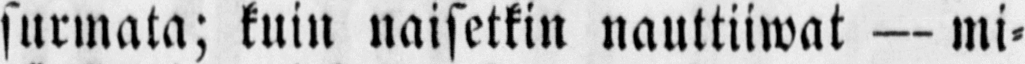surmata; kuin naisetkin nauttiiwat — mi-
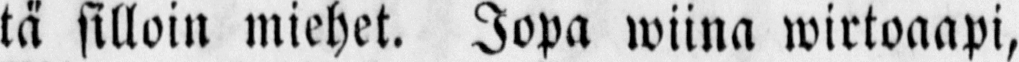tä silloin miehet. Jopa wiina wirtoaapi,
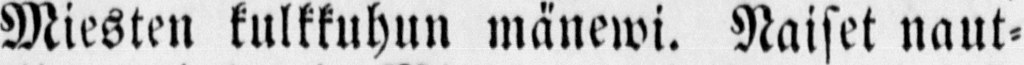Miesten kulkkuhun mänewi. Naiset naut-
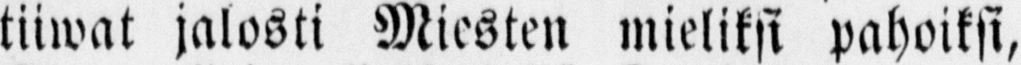tiiwat jalosti Miesten mieliksi pahoiksi,
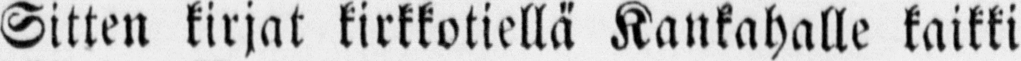Sitten kirjat kirkkotiellä Kaukahalle kaikki
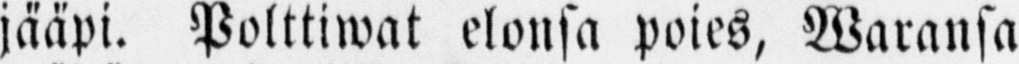jääpi. Polttiwat elonsa poies, Waransa
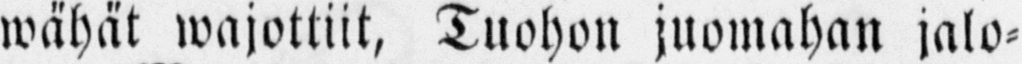wähät wajottiit, Tuohon juomahan jalo-
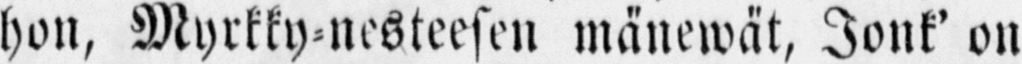han, Myrkky-nesteesen mänewät, Jonk' on
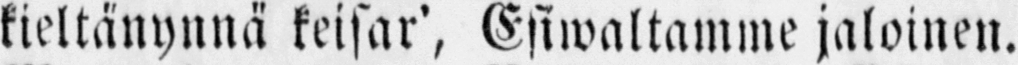kieltänynnä keisar', Esiwaltamme jaloinen.
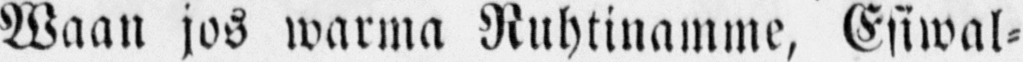Waan jos warma Ruhtinamme, Esiwal-
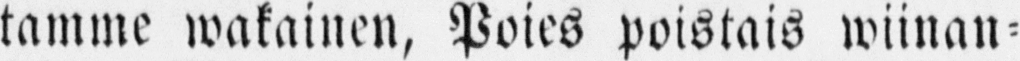tamme wakainen, Poies poistais wiinan-
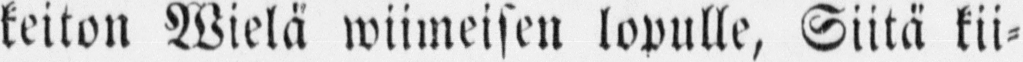keiton Wielä wiimeisen lopulle, Siitä kii-
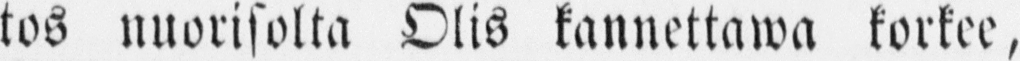tos nuorisolta Olis kannettawa korkee,
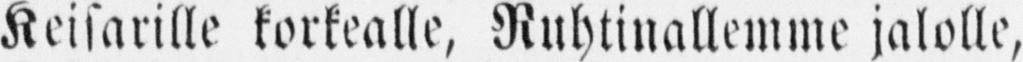Keisarille korkealle, Ruhtinallemme jalolle,
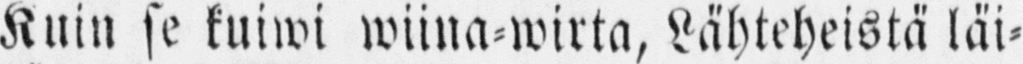Kuin se kuiwi wiina-wirta, Lähteheistä läi-
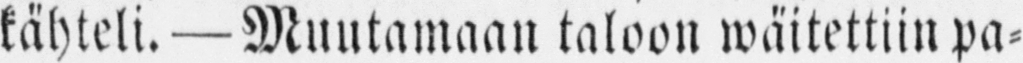kähteli. — Muutamaan taloon wäitettiin pa-
